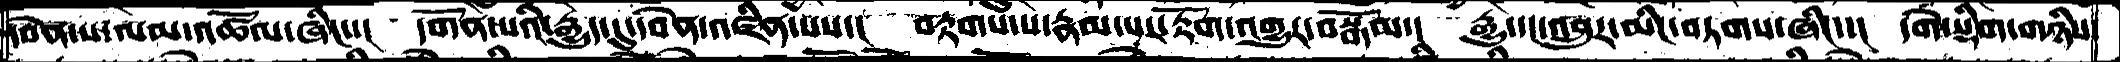དབེན་པ་ལམ་འཚོལ་ཞིང་།  དགོན་པའི་རྒྱུད་དུ་དབེན་འཛིན་པས་།  བརྟགས་པ་རྣམ་པར་རྟོག་འགྱུར་བསྒོམ་།  རྒྱུ་དང་འབྲུར་མིང་བཏགས་ཞིང་།  དགེ་སྡིག་གཉིས་
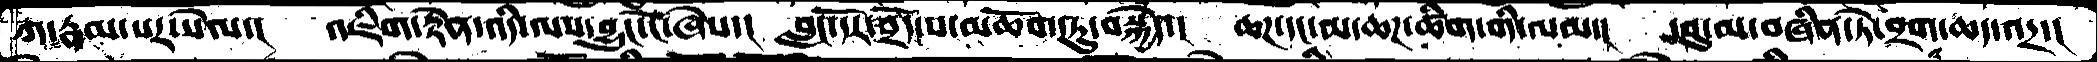ཀ་རྣམ་པར་སེལ་།  འཇིག་རྟེན་འདི་ལས་བྱུང་ངོ་ཞེས་།  བླང་དོར་བྲོད་པ་མཆོག་ཏུ་བསྐྱེད་།  ཆཌ་དང་མ་ཆཌ་ཚིག་གི་ལམ་།  དབུ་མ་བཞིན་ཏེ་བྲག་ཆད་འདྲ་།
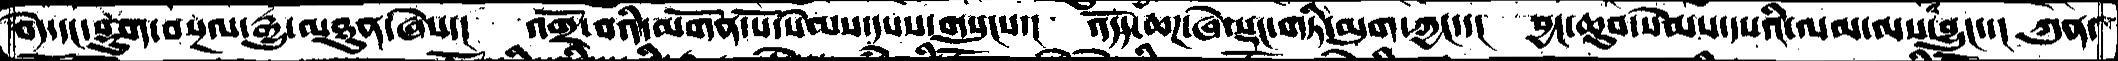བདེ་དང་སྡུག་བསྔལ་རྒྱུ་མཐུན་ཞེས་།  འགྲོ་བའི་མགོན་པོ་སེམས་དསས་གསུངས་།  འདོད་ཆཌ་ཞེ་སྡང་གཏི་མུག་ཀྱང་་།  བྱང་ཆུབ་སེམས་དཔའི་ལམ་ལས་བྱུང་་།  ཀུན་
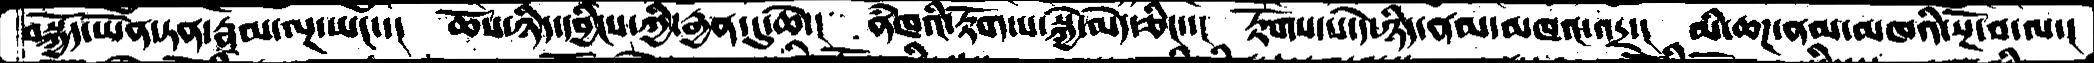བསྐྱོད་ཡོན་ཏན་རྣམ་ལྔ་ཡང་་།  ཆོས་ཉིད་དབྱིངས་ཀྱི་རྒྱན་དུ་ཆེ་།  ནཾཁའི་རྟོག་པ་སྐྱེ་མེད་ཅིང་་།  རྟོགས་པ་དེ་ཉིད་ནམ་མཁའ་འདྲ་།  མི་ཆཌ་ནམ་མཁའི་སྔོ་བ་ལ་།
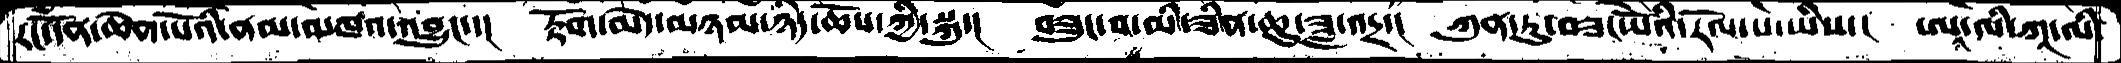རང་དོན་ཆེན་པོའི་ནམ་མཁའ་འབྱུང་་།  རྟོག་མེད་མཉམ་ཉིད་ཆོས་ཀྱི་སྐུ་།  བཟུང་བ་མི་ཟིན་ཆུ་ཟླ་འདྲ་།  ཀུན་ཏུ་བཟང་པོའི་རོལ་པོ་ཡིས་།  ཨཱ་ལི་ཀཱ་ལི་
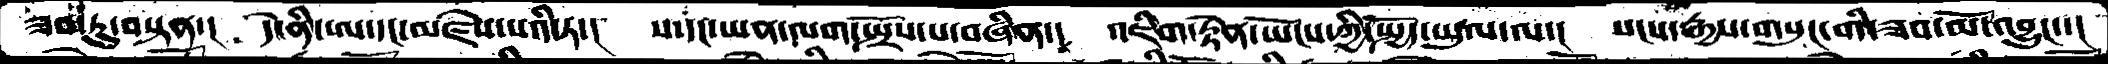ཟབ་ཏུ་བསྟན་།  དེ་ནི་ཨ་དང་མཛེས་པའི་ཏ་།  ས་དང་ཡན་ལག་སྤྲོས་པ་བཞིན་།  འཇིག་རྟེན་ཡོངས་ཀྱི་སྤྱོད་ཡུལ་ལ་།  སངས་རྒྱས་གསུང་གི་ཟབ་མོ་འབྱུང་་།
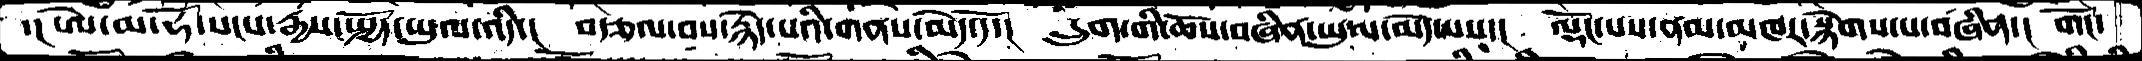་།ཨེ་མ་ཧོ་སངས་རྒྱས་སྤྱོད་ཡུལ་འདི་།  བརྩལ་བས་རྙེད་པའི་གནས་མེད་དོ་།  དྲུག་གི་ཆོས་བཞིན་ཡུལ་མེད་པས་།  ལྡོང་པས་ནམ་མཁར་སྙེགས་པ་བཞིན་།  གོང་
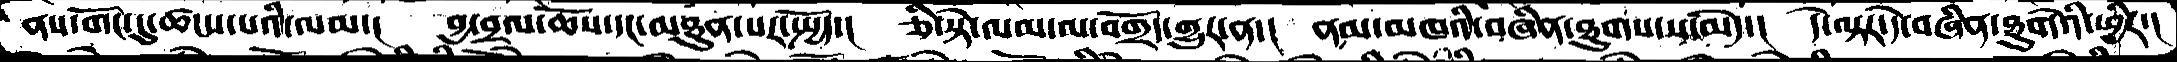ནས་གོང་དུ་ཚངས་པའི་ལམ་།  བྱ་བྲལ་ཆོས་དང་མཐུན་པར་སྤྱོད་།  ཅི་སྟེ་ལམ་ལ་བགྲོད་གྱུར་ན་།  ནམ་མཁའི་བཞིན་ཐུགས་ས་མེད་།  དེ་ལྟར་དེ་བཞིན་ཐུགེའི་ཕྱིར་།
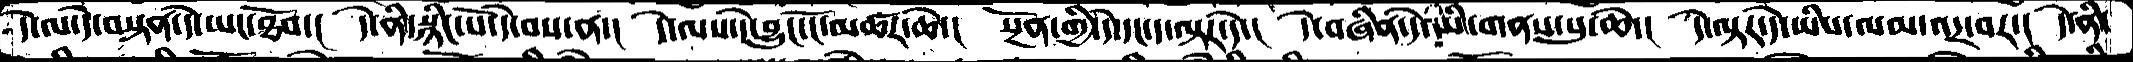དེ་ལ་དེ་བསྟན་དེ་ཡང་ཐོབ་། དེ་ནི་སྙིང་པོ་དེ་བས་ན་།  དེ་ལས་དེ་བྱུང་ངོ་མཚར་ཆེ་།  སྔོན་གྱི་དེ་དང་ད་ལྟར་དེ་། དེ་བཞིན་དེ་ཡི་གནས་སུ་ཆེ་།  དེ་ལྟར་དེ་ཡིས་ལམ་འདྲ་བར་། དེ་ནི་
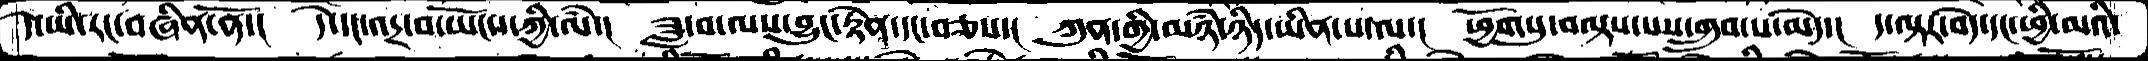དེ་ཡི་རང་བཞིན་ནོ་།  དེ་དང་འདྲ་བ་ཡོངས་ཀྱི་ལཾ་།  ཟླ་བ་ལས་བྱུང་རྟེན་དང་བཅས་།  ཀུན་གྱི་མཉཾ་ཉིད་ཡིན་པ་ལ་།  ཕྱོགསུ་བལྟས་པས་གྲུབ་པ་མེད་།  ད་ལྟར་བདེ་དང་ཕྱི་མའི་
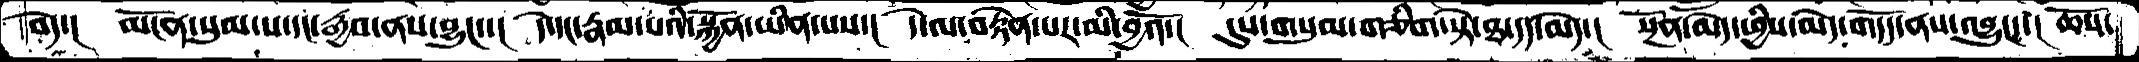བདེ་།  མངོན་སུམ་པ་དང་རྒྱབ་ནས་བྱུང་།  དེ་དང་རྣམ་པའི་སྐྱོན་ཡིན་པས་།  དེ་ལ་བརྟེན་པར་མི་བྱའོ་།  དུས་གསུམ་གཅིག་སྟེ་ཐ་དད་མེད་།  སྔོན་མེད་ཕྱིས་མེད་གདོད་ནས་འབྱུང་ད།  ཆོས་
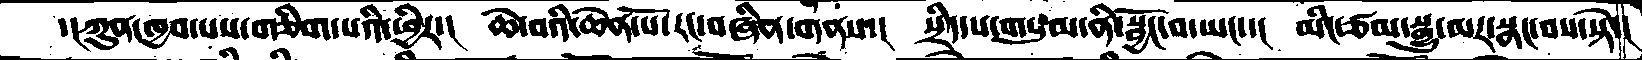་།ཀུན་ཁྱབ་པས་གཅིག་པའི་ཕྱིར་།  ཆེ་བའི་ཆེན་པོ་རང་བཞིན་གནས་།  སྲིད་པ་གསུམ་ནི་སྦྱོང་བ་ཡང་་།  མིང་ཙམ་སྒྱུ་མར་སྣང་བས་སྟེ་།
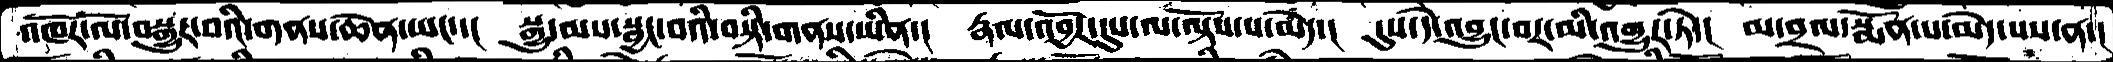འཁོར་ལོ་བསྒྱུར་བའི་གནས་ཆེན་ཡང་་།  སྒྱུ་མས་སྦྱང་བའི་བསྟི་གནས་ཡིན་།  རྣལ་འབྱོར་དུས་ལ་ལྟོས་པ་མེད་།  དུས་དེ་འབྱུང་བར་མི་འགྱུར་ཏེ་།  མ་བྲལ་སྨོན་པ་མེད་པས་ན་།
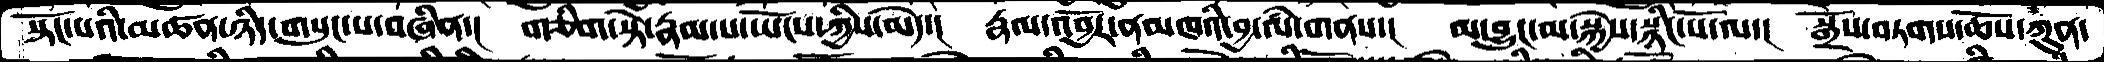སྟོང་པའི་མཚན་ཉིད་གསུང་པ་བཞིན་།  གཅིག་སྟེ་རྣམ་པ་ཡོངས་ཀྱིས་མེད་།  རྣལ་འབྱོར་ནམཁའི་བྱ་ལཾ་གནས་།  མ་བྱུང་མ་སྐྱེས་སྙིང་པོ་ལ་།  སྒྲོས་བཏགས་ཆོས་ཀུན་
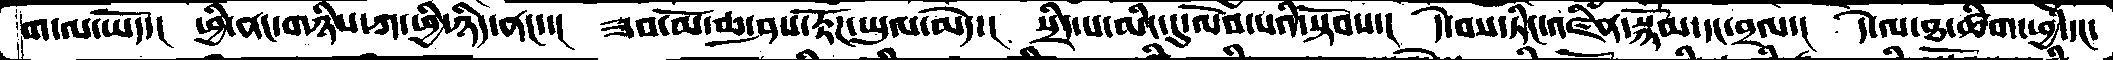ག་ལ་ཡོད་།  ཕྱི་ནང་གཉིས་ཀ་ཕྱི་ཉིད་ནང་་།  ཟབ་མོ་ཆ་ཤས་རྟོཌ་ཡུལ་མེད་།  སྲིད་པ་མིང་དུ་ལེབ་པའི་སྟོབས་།  དེ་བས་ཏིང་འཛིན་སྙོམ་དང་བྲལ་།  དེ་ལ་ཐ་ཚིག་ཕྱི་དང་
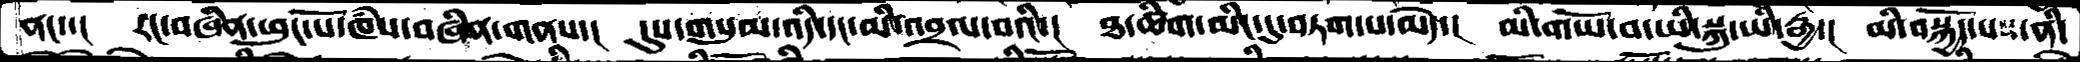ནང་་།  རང་བཞིན་ཕུང་པོ་ཁཾས་བཞིན་གནས་།  དུས་གསུམ་འདི་དང་མི་འབྲལ་བའི་།  ཐ་ཚིག་མིང་དུ་བཏག་པ་མེད་།  མི་གཡོ་བ་ཡི་སྐུ་ཡི་རྒྱ་།  མི་བསྐྱོད་པས་ནི་
